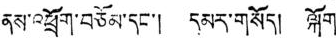ནས་འཕྲོག་བཅོམ་དང་། དམར་གསོད། ལྐོག་
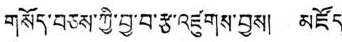གསོད་བཅས་ཀྱི་བྱ་བ་རྩ་འཛུགས་བྱས། མཛོད་
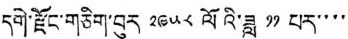དགེ་རྫོང་གཅིག་བུར ༡༩༥༨ ལོའི་ཟླ ༡༡ པར་་་་
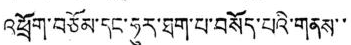འཕྲོག་བཅོམ་དང་ཧུར་ཐག་པ་བསོད་པའི་གནས་་
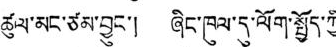ཚུལ་མང་ཙམ་བྱུང་། ཞིང་ཁུལ་དུ་ལོག་སྤྱོད་ཀྱི་
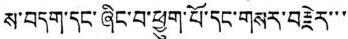ས་བདག་དང་ཞིང་བ་ཕྱུག་པོ་དང་གསར་བརྗེར་་་
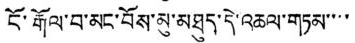ངོ་རྒོལ་བ་མང་བོས་མུ་མཐུད་དེ་འཆལ་གཏམ་་་་
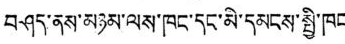བཤད་ནས་མཉམ་ལས་ཁང་དང་མི་དམངས་སྤྱི་ཁང
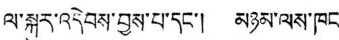ལ་སྐུར་འདེབས་བྱས་པ་དང་། མཉམ་ལས་ཁང་
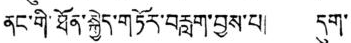ནང་གི་ཐོན་སྐྱེད་གཏོར་བརླག་བྱས་པ། དུག་
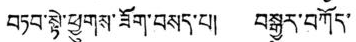བཏབ་སྟེ་ཕྱུགས་ཟོག་བསད་པ། བསྒྱུར་བཀོད་
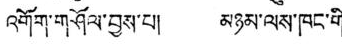འགོག་གཤོལ་བྱས་པ། མཉམ་ལས་ཁང་གི་
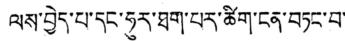ལས་བྱེད་པ་དང་ཧུར་ཐག་པར་ཚིག་ངན་བཏང་བ་་
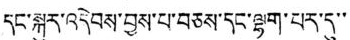དང་སྐུར་འདེབས་བྱས་པ་བཅས་དང་ལྷག་པར་དུ་་
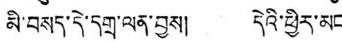མི་བསད་དེ་དགྲ་ལན་བྱས། དེའི་ཕྱིར་མང་
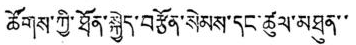ཚོགས་ཀྱི་ཐོན་སྐྱེད་བརྩོན་སེམས་དང་ཚུལ་མཐུན་་
